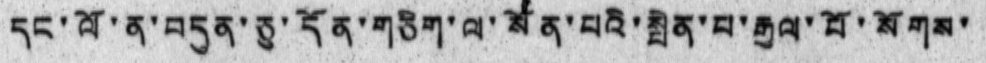དང་ལོ་ན་བདུན་ཅུ་དོན་གཅིག་ལ་སོན་པའི་སྤེན་པ་རྒྱལ་པོ་སོགས་
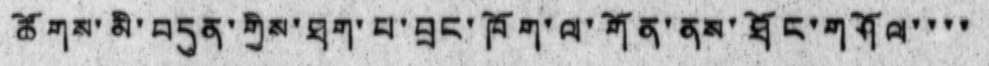ཚོགས་མི་བདུན་གྱིས་ཐག་པ་བྲང་ཁོག་ལ་གོན་ནས་ཐོང་གཤོལ་་་་
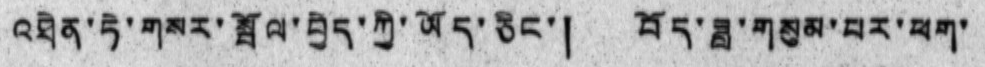འཐེན་ཏེ་གསར་སྦོལ་བྱེད་ཀྱི་ཡོད་ཅིང་། བོད་ཟླ་གསུམ་པར་ཕག་
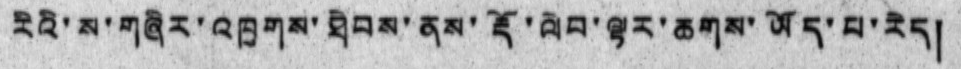རིའི་ས་གཞིར་འཁྱགས་ཐེབས་ནས་རྡོ་ལེབ་ལྟར་ཆགས་ཡོད་པ་རེད།
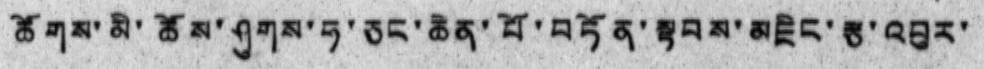ཚོགས་མི་ཚོས་ཤུགས་ཧ་ཅང་ཆེན་པོ་བཏོན་སྟབས་མཇིང་རྩ་འབུར་
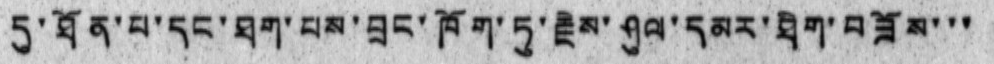དུ་ཐོན་པ་དང་ཐག་པས་བྲང་ཁོག་ཏུ་རྗེས་ཤུལ་དམར་ཐིག་བཟོས་་་
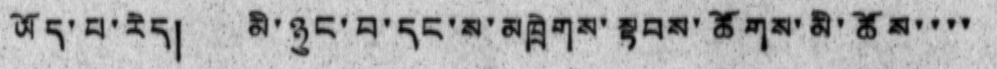ཡོད་པ་རེད། མི་ཉུང་བ་དང་ས་མཁྲེགས་སྟབས་ཚོགས་མི་ཚོས་་་་
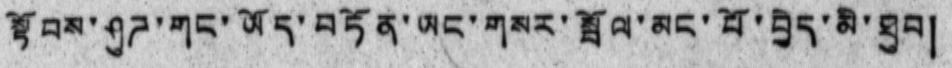སྟོབས་ཤུཌ་གང་ཡོད་བཏོན་ཡང་གསར་སྦོལ་མང་པོ་བྱེད་མི་ཐུབ།
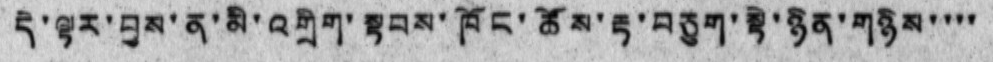དེ་ལྟར་བྱས་ན་མི་འགྲིག་སྟབས་ཁོང་ཚོས་རྟ་བཅུག་སྟེ་ཉིན་གཉིས་་་་
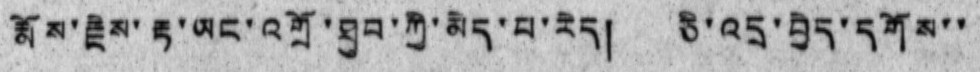རྨོས་རྗེས་རྟ་ཡང་འགྲོ་ཐུབ་ཀྱི་མེད་པ་རེད། ཅི་འདྲ་བྱེད་དགོས་་
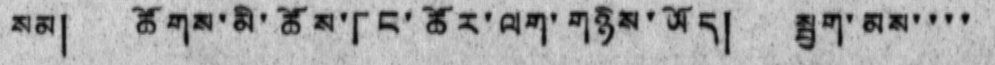སམ། ཚོགས་མི་ཚོས་「ང་ཚོར་ལག་གཉིས་ཡོད། སྦྱག་མས་་་་
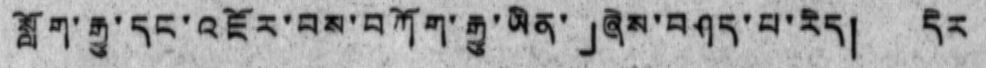སློག་རྒྱུ་དང་འཇོར་བས་བཀོག་རྒྱུ་ཡིན་」ཞེས་བཤད་པ་རེད། དེར
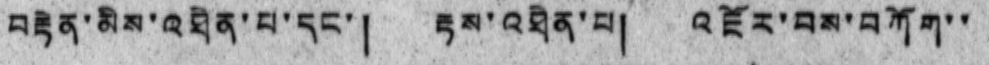བརྟེན་མིས་འཐེན་པ་དང་། རྟས་འཐེན་པ། འཇོར་བས་བཀོག་་
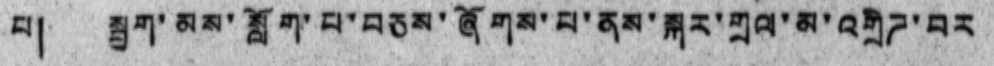པ། སྦྱག་མས་སློག་པ་བཅས་ཞོགས་པ་ནས་སྐར་གྲལ་མ་འགྲིཌ་བར
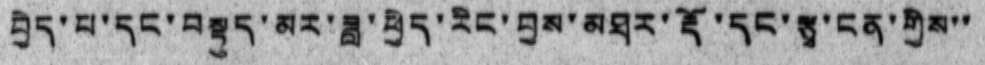བྱེད་པ་དང་བསྟུད་མར་ཟླ་ཕྱེད་རིང་བྱས་མཐར་རྡོ་དང་རྩྭ་ངན་གྱིས་་
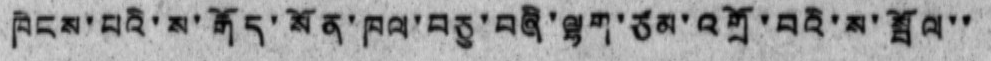ཁེངས་པའི་ས་རྒོད་སོན་ཁལ་བཅུ་བཞི་ལྷག་ཙམ་འགྲོ་བའི་མ་སྦོལ་་
